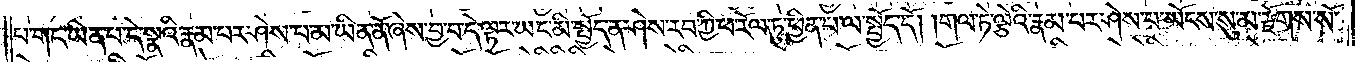པ་གང་ཡིན་པ་དེ་སྣའི་རྣམ་པར་ཤེས་པ་མ་ཡིན་ནོ་ཞེས་བྱ་བ་དེ་ལྟར་ཡང་མི་སྤྱོད་ན་ཤེས་རབ་ཀྱི་ཕ་རོལ་ཏུ་ཕྱིན་པ་ལ་སྤྱོད་དོ། །གལ་ཏེ་ལྕེའི་རྣམ་པར་ཤེས་པ་ཡོངས་སུ་མ་རྫོགས་སོ་
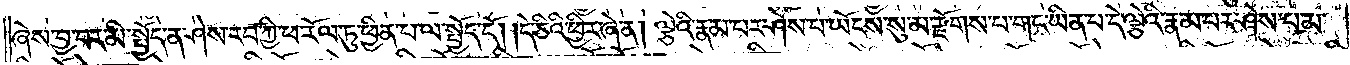ཞེས་བྱ་བར་མི་སྤྱོད་ན་ཤེས་རབ་ཀྱི་ཕ་རོལ་ཏུ་ཕྱིན་པ་ལ་སྤྱོད་དོ། །དེ་ཅིའི་ཕྱིར་ཞེ་ན། ལྕེའི་རྣམ་པར་ཤེས་པ་ཡོངས་སུ་མ་རྫོགས་པ་གང་ཡིན་པ་དེ་ལྕེའི་རྣམ་པར་ཤེས་པ་མ་
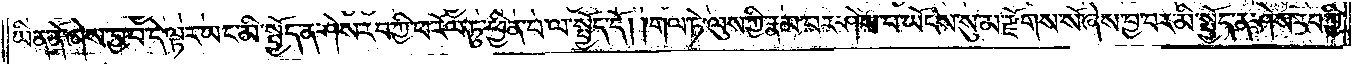ཡིན་ནོ་ཞེས་བྱ་བ་དེ་ལྟར་ཡང་མི་སྤྱོད་ན་ཤེས་རབ་ཀྱི་ཕ་རོལ་ཏུ་ཕྱིན་པ་ལ་སྤྱོད་དོ། །གལ་ཏེ་ལུས་ཀྱི་རྣམ་པར་ཤེས་པ་ཡོངས་སུ་མ་རྫོགས་སོ་ཞེས་བྱ་བར་མི་སྤྱོད་ན་ཤེས་རབ་ཀྱི་
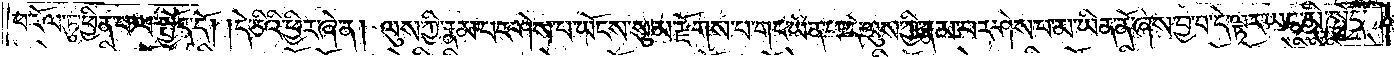ཕ་རོལ་ཏུ་ཕྱིན་པ་ལ་སྤྱོད་དོ། །དེ་ཅིའི་ཕྱིར་ཞེ་ན། ལུས་ཀྱི་རྣམ་པར་ཤེས་པ་ཡོངས་སུ་མ་རྫོགས་པ་གང་ཡིན་པ་དེ་ལུས་ཀྱི་རྣམ་པར་ཤེས་པ་མ་ཡིན་ནོ་ཞེས་བྱ་བ་དེ་ལྟར་ཡང་མི་སྤྱོད་
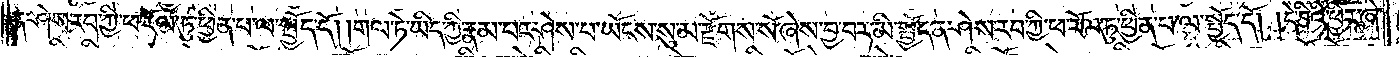ན་ཤེས་རབ་ཀྱི་ཕ་རོལ་ཏུ་ཕྱིན་པ་ལ་སྤྱོད་དོ། །གལ་ཏེ་ཡིད་ཀྱི་རྣམ་པར་ཤེས་པ་ཡོངས་སུ་མ་རྫོགས་སོ་ཞེས་བྱ་བར་མི་སྤྱོད་ན་ཤེས་རབ་ཀྱི་ཕ་རོལ་ཏུ་ཕྱིན་པ་ལ་སྤྱོད་དོ། །དེ་ཅིའི་ཕྱིར་ཞེ་
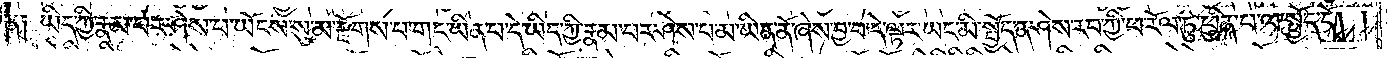ན༑ ཡིད་ཀྱི་རྣམ་པར་ཤེས་པ་ཡོངས་སུ་མ་རྫོགས་པ་གང་ཡིན་པ་དེ་ཡིད་ཀྱི་རྣམ་པར་ཤེས་པ་མ་ཡིན་ནོ་ཞེས་བྱ་བ་དེ་ལྟར་ཡང་མི་སྤྱོད་ན་ཤེས་རབ་ཀྱི་ཕ་རོལ་ཏུ་ཕྱིན་པ་ལ་སྤྱོད་དོ། །
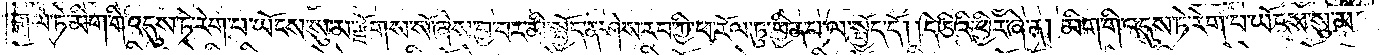གལ་ཏེ་མིག་གི་འདུས་ཏེ་རེག་པ་ཡོངས་སུ་མ་རྫོགས་སོ་ཞེས་བྱ་བར་མི་སྤྱོད་ན་ཤེས་རབ་ཀྱི་ཕ་རོལ་ཏུ་ཕྱིན་པ་ལ་སྤྱོད་དོ། །དེ་ཅིའི་ཕྱིར་ཞེ་ན། མིག་གི་འདུས་ཏེ་རེག་པ་ཡོངས་སུ་མ་
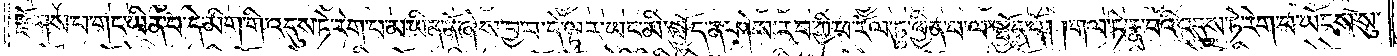རྫོགས་པ་གང་ཡིན་པ་དེ་མིག་གི་འདུས་ཏེ་རེག་པ་མ་ཡིན་ནོ་ཞེས་བྱ་བ་དེ་ལྟར་ཡང་མི་སྤྱོད་ན་ཤེས་རབ་ཀྱི་ཕ་རོལ་ཏུ་ཕྱིན་པ་ལ་སྤྱོད་དོ། །གལ་ཏེ་རྣ་བའི་འདུས་ཏེ་རེག་པ་ཡོངས་སུ་
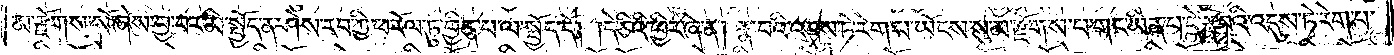མ་རྫོགས་སོ་ཞེས་བྱ་བར་མི་སྤྱོད་ན་ཤེས་རབ་ཀྱི་ཕ་རོལ་ཏུ་ཕྱིན་པ་ལ་སྤྱོད་དོ། །དེ་ཅིའི་ཕྱིར་ཞེ་ན། རྣ་བའི་འདུས་ཏེ་རེག་པ་ཡོངས་སུ་མ་རྫོགས་པ་གང་ཡིན་པ་དེ་རྣ་བའི་འདུས་ཏེ་རེག་པ་
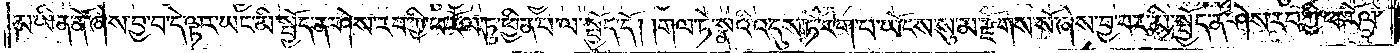མ་ཡིན་ནོ་ཞེས་བྱ་བ་དེ་ལྟར་ཡང་མི་སྤྱོད་ན་ཤེས་རབ་ཀྱི་ཕ་རོལ་ཏུ་ཕྱིན་པ་ལ་སྤྱོད་དོ། །གལ་ཏེ་སྣའི་འདུས་ཏེ་རེག་པ་ཡོངས་སུ་མ་རྫོགས་སོ་ཞེས་བྱ་བར་མི་སྤྱོད་ན་ཤེས་རབ་ཀྱི་ཕ་རོལ་
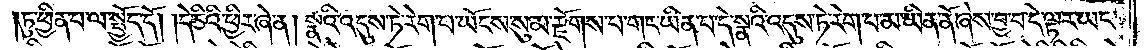ཏུ་ཕྱིན་པ་ལ་སྤྱོད་དོ། །དེ་ཅིའི་ཕྱིར་ཞེ་ན། སྣའི་འདུས་ཏེ་རེག་པ་ཡོངས་སུ་མ་རྫོགས་པ་གང་ཡིན་པ་དེ་སྣའི་འདུས་ཏེ་རེག་པ་མ་ཡིན་ནོ་ཞེས་བྱ་བ་དེ་ལྟར་ཡང་
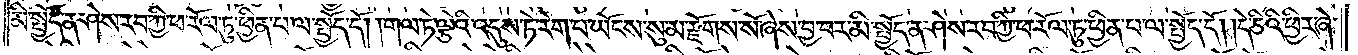མི་སྤྱོད་ན་ཤེས་རབ་ཀྱི་ཕ་རོལ་ཏུ་ཕྱིན་པ་ལ་སྤྱོད་དོ། །གལ་ཏེ་ལྕེའི་འདུས་ཏེ་རེག་པ་ཡོངས་སུ་མ་རྫོགས་སོ་ཞེས་བྱ་བར་མི་སྤྱོད་ན་ཤེས་རབ་ཀྱི་ཕ་རོལ་ཏུ་ཕྱིན་པ་ལ་སྤྱོད་དོ། །དེ་ཅིའི་ཕྱིར་ཞེ་
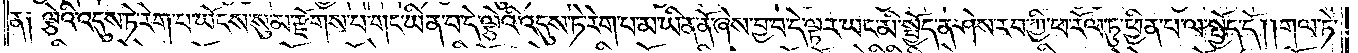ན༑ ལྕེའི་འདུས་ཏེ་རེག་པ་ཡོངས་སུ་མ་རྫོགས་པ་གང་ཡིན་པ་དེ་ལྕེའི་འདུས་ཏེ་རེག་པ་མ་ཡིན་ནོ་ཞེས་བྱ་བ་དེ་ལྟར་ཡང་མི་སྤྱོད་ན་ཤེས་རབ་ཀྱི་ཕ་རོལ་ཏུ་ཕྱིན་པ་ལ་སྤྱོད་དོ། །གལ་ཏེ་
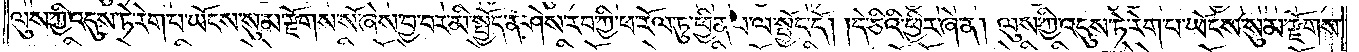ལུས་ཀྱི་འདུས་ཏེ་རེག་པ་ཡོངས་སུ་མ་རྫོགས་སོ་ཞེས་བྱ་བར་མི་སྤྱོད་ན་ཤེས་རབ་ཀྱི་ཕ་རོལ་ཏུ་ཕྱིན་པ་ལ་སྤྱོད་དོ། །དེ་ཅིའི་ཕྱིར་ཞེ་ན། ལུས་ཀྱི་འདུས་ཏེ་རེག་པ་ཡོངས་སུ་མ་རྫོགས་
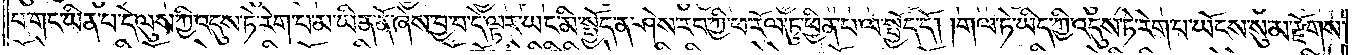པ་གང་ཡིན་པ་དེ་ལུས་ཀྱི་འདུས་ཏེ་རེག་པ་མ་ཡིན་ནོ་ཞེས་བྱ་བ་དེ་ལྟར་ཡང་མི་སྤྱོད་ན་ཤེས་རབ་ཀྱི་ཕ་རོལ་ཏུ་ཕྱིན་པ་ལ་སྤྱོད་དོ། །གལ་ཏེ་ཡིད་ཀྱི་འདུས་ཏེ་རེག་པ་ཡོངས་སུ་མ་རྫོགས་
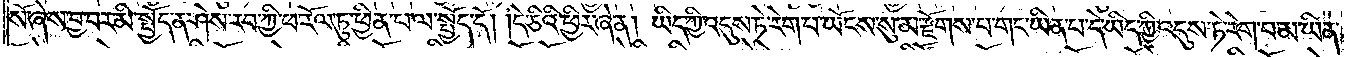སོ་ཞེས་བྱ་བར་མི་སྤྱོད་ན་ཤེས་རབ་ཀྱི་ཕ་རོལ་ཏུ་ཕྱིན་པ་ལ་སྤྱོད་དོ། །དེ་ཅིའི་ཕྱིར་ཞེ་ན། ཡིད་ཀྱི་འདུས་ཏེ་རེག་པ་ཡོངས་སུ་མ་རྫོགས་པ་གང་ཡིན་པ་དེ་ཡིད་ཀྱི་འདུས་ཏེ་རེག་པ་མ་ཡིན་
